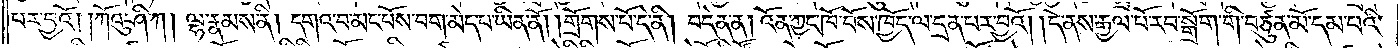པར་བྱའོ། །ཀོའུ་ཤི་ཀ། ལྷ་རྣམས་ནི། དགའ་བ་མང་པོས་བག་མེད་པ་ཡིན་ནོ། །གྲོགས་པོ་དེ་ནི། བདེན་ན། འོན་ཀྱང་ཁོ་བོས་ཁྱོད་ལ་དྲན་པར་བྱའོ། །དེ་ནས་རྒྱལ་པོ་རབ་སྒྲོག་གི་བཙུན་མོ་དམ་པའི་
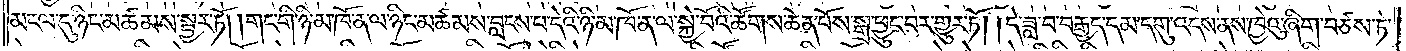མངལ་དུ་ཉིང་མཚམས་སྦྱར་ཏོ། །གང་གི་ཉི་མ་ཁོ་ན་ལ་ཉིང་མཚམས་བླངས་པ་དེའི་ཉི་མ་ཁོ་ན་ལ་སྐྱེ་བོའི་ཚོགས་ཆེན་པོས་སྒྲ་ཕྱུང་བར་གྱུར་ཏོ། །དེ་ཟླ་བ་བརྒྱད་དམ་དགུ་འདས་ནས་ཁྱེའུ་ཞིག་བཙས་ཏེ་
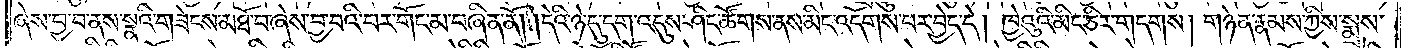ཞེས་བྱ་བ་ནས་སྣའི་གཟེངས་མཐོ་བ་ཞེས་བྱ་བའི་བར་གོང་མ་བཞིན་ནོ། །དེའི་ཉེ་དུ་དག་འདུས་ཤིང་ཚོགས་ནས་མིང་འདོགས་པར་བྱེད་དེ། ཁྱེའུའི་མིང་ཅིར་གདགས། གཉེན་རྣམས་ཀྱིས་སྨྲས་
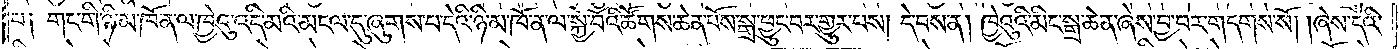པ༑ གང་གི་ཉི་མ་ཁོ་ན་ལ་ཁྱེའུ་འདི་མའི་མངལ་དུ་ཞུགས་པ་དེའི་ཉི་མ་ཁོ་ན་ལ་སྐྱེ་བོའི་ཚོགས་ཆེན་པོས་སྒྲ་ཕྱུང་བར་གྱུར་པས། དེ་བས་ན། ཁྱེའུའི་མིང་སྒྲ་ཆེན་ཞེས་བྱ་བར་གདགས་སོ། །ཞེས་དེའི་
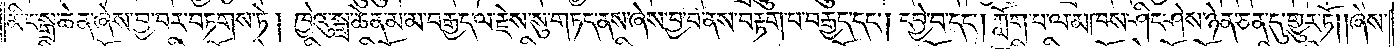མིང་སྒྲ་ཆེན་ཞེས་བྱ་བར་བཏགས་ཏེ། ཁྱེའུ་སྒྲ་ཆེན་མ་མ་བརྒྱད་ལ་རྗེས་སུ་གཏད་ནས་ཞེས་བྱ་བ་ནས་བརྟག་པ་བརྒྱད་དང༌། དབྱེ་བ་དང༌། ཀློག་པ་ལ་མཁས་ཤིང་ཤེས་ཉེན་ཅན་དུ་གྱུར་ཏོ། །ཞེས་
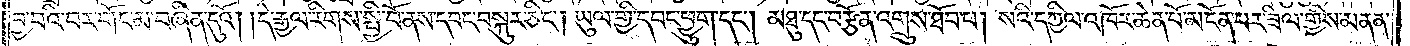བྱ་བའི་བར་གོང་མ་བཞིན་དུའོ། །དེ་རྒྱལ་རིགས་སྤྱི་བོ་ནས་དབང་བསྐུར་ཅིང༌། ཡུལ་གྱི་དབང་ཕྱུག་དང༌། མཐུ་དང་བརྩོན་འགྲུས་ཐོབ་པ། སའི་དཀྱིལ་འཁོར་ཆེན་པོ་མངོན་པར་ཟིལ་གྱིས་མནན་
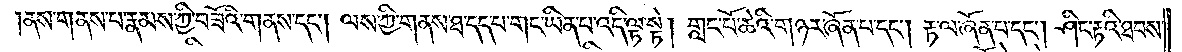ནས་གནས་པ་རྣམས་ཀྱི་བཟོའི་གནས་དང༌། ལས་ཀྱི་གནས་ཐ་དད་པ་གང་ཡིན་པ་འདི་ལྟ་སྟེ། གླང་པོ་ཆེའི་གཉར་ཞོན་པ་དང༌། རྟ་ལ་ཞོན་པ་དང༌། ཤིང་རྟའི་ཐབས་
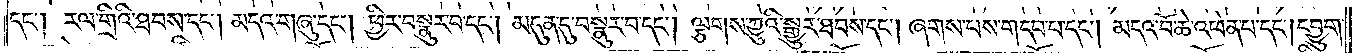དང༌། རལ་གྲིའི་ཐབས་དང༌། མདའ་གཞུ་དང༌། ཕྱིར་བསྣུར་བ་དང༌། མདུན་དུ་བསྣུར་བ་དང༌། ལྕགས་ཀྱུའི་སྒྱུར་ཐབས་དང༌། ཞགས་པས་གདབ་པ་དང༌། མདའ་བོ་ཆེ་འཕེན་པ་དང༌། དབྱུག་
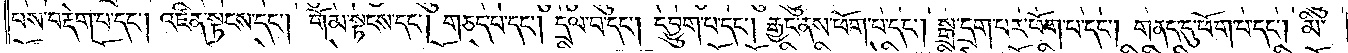པས་བརྡེག་པ་དང༌། འཛིན་སྟངས་དང༌། གོམ་སྟངས་དང༌། གཅད་པ་དང༌། དྲལ་བ་དང༌། དབྱུག་པ་དང༌། རྒྱང་ནས་ཕོག་པ་དང༌། སྒྲ་དྲག་པར་ཕོག་པ་དང༌། གནད་དུ་ཕོག་པ་དང༌། མི་
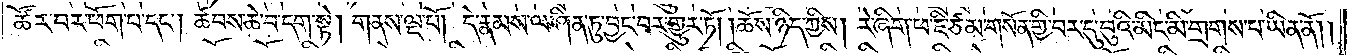ཚོར་བར་ཕོག་པ་དང༌། ཚབས་ཆེ་བ་དག་སྟེ། གནས་ལྔ་པོ། དེ་རྣམས་ལ་ཤིན་ཏུ་བྱང་བར་གྱུར་ཏོ། །ཆོས་ཉིད་ཀྱིས། རེ་ཞིག་ཕ་ཇི་ཙམ་གསོན་གྱི་བར་དུ་བུའི་མིང་མི་གྲགས་པ་ཡིན་ནོ། །
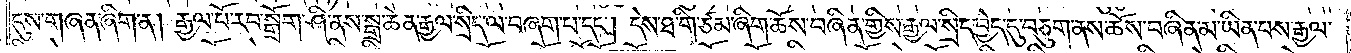དུས་གཞན་ཞིག་ན། རྒྱལ་པོ་རབ་སྒྲོག་ཤི་ནས་སྒྲ་ཆེན་རྒྱལ་སྲིད་ལ་བཞག་པ་དང༌། དེས་ཐ་གི་ཙམ་ཞིག་ཆོས་བཞིན་གྱིས་རྒྱལ་སྲིད་བྱེད་དུ་བཅུག་ནས་ཆོས་བཞིན་མ་ཡིན་པས་རྒྱལ་
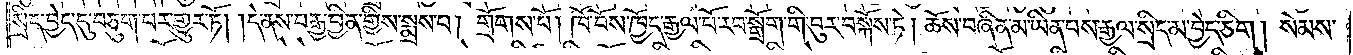སྲིད་བྱེད་དུ་བཅུག་པར་གྱུར་ཏོ། །དེ་ནས་བརྒྱ་བྱིན་གྱིས་སྨྲས་པ། གྲོགས་པོ། ཁོ་བོས་ཁྱོད་རྒྱལ་པོ་རབ་སྒྲོག་གི་བུར་བསྐོས་ཏེ། ཆོས་བཞིན་མ་ཡིན་པས་རྒྱལ་སྲིད་མ་བྱེད་ཅིག །སེམས་
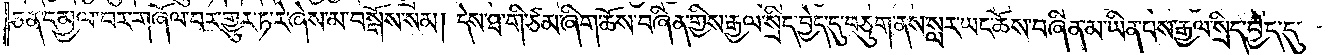ཅན་དམྱལ་བར་གཞོལ་བར་གྱུར་ཏ་རེ་ཞེས་མ་བསྒོས་སམ། དེས་ཐ་གི་ཙམ་ཞིག་ཆོས་བཞིན་གྱིས་རྒྱལ་སྲིད་བྱེད་དུ་བཅུག་ནས་སླར་ཡང་ཆོས་བཞིན་མ་ཡིན་པས་རྒྱལ་སྲིད་བྱེད་དུ་
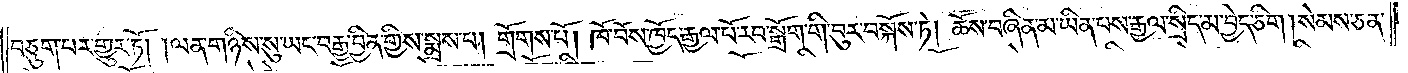བཅུག་པར་གྱུར་ཏོ། །ལན་གཉིས་སུ་ཡང་བརྒྱ་བྱིན་གྱིས་སྨྲས་པ། གྲོགས་པོ། ཁོ་བོས་ཁྱོད་རྒྱལ་པོ་རབ་སྒྲོག་གི་བུར་བསྐོས་ཏེ། ཆོས་བཞིན་མ་ཡིན་པས་རྒྱལ་སྲིད་མ་བྱེད་ཅིག །སེམས་ཅན་
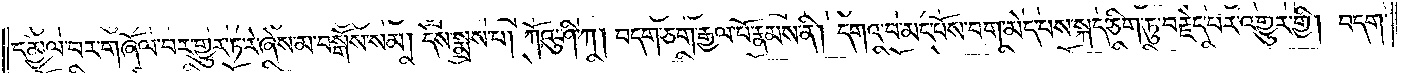དམྱལ་བར་གཞོལ་བར་གྱུར་ཏ་རེ་ཞེས་མ་བསྒོས་སམ། དེས་སྨྲས་པ། ཀོའུ་ཤི་ཀ། བདག་ཅག་རྒྱལ་པོ་རྣམས་ནི། དགའ་བ་མང་པོས་བག་མེད་པས་སྐད་ཅིག་ཏུ་བརྗེད་པར་འགྱུར་གྱི། བདག་
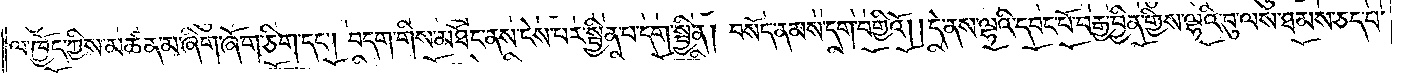ལ་ཁྱོད་ཀྱིས་མཚན་མ་ཞིག་ཞོག་ཅིག་དང༌། བདག་གིས་མཐོང་ནས་ངེས་པར་སྦྱིན་པ་དག་སྦྱིན། བསོད་ནམས་དག་བགྱིའོ། །དེ་ནས་ལྷའི་དབང་པོ་བརྒྱ་བྱིན་གྱིས་ལྷའི་བུ་ལས་ཐམས་ཅད་པ་
